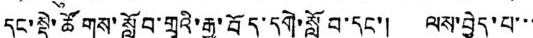དང་སྡེ་ཚོགས་སློབ་གྲྭའི་རྒྱ་བོད་དགེ་སློབ་དང་། ལས་བྱེད་པ་་་
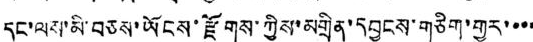དང་ལས་མི་བཅས་ཡོངས་རྫོགས་ཀྱིས་མགྲིན་དབྱངས་གཅིག་གྱུར་་་་
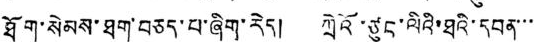ཐོག་སེམས་ཐག་བཅད་པ་ཞིག་རེད། ཀྲེའོ་ཙུང་ལིའི་ཐའི་དབན་་་
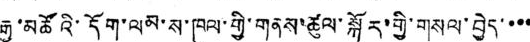རྒྱ་མཚོའི་དོག་ལམ་ས་ཁུལ་གྱི་གནས་ཚུལ་སྐོར་གྱི་གསལ་བྱེད་་་་
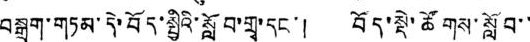བསྒྲག་གཏམ་དེ་བོད་སྤྱིའི་སློབ་གྲྭ་དང་། བོད་སྡེ་ཚོགས་སློབ་་
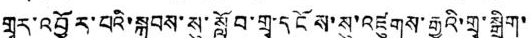གྲྭར་འབྱོར་བའི་སྐབས་སུ་སློབ་གྲྭ་དངོས་སུ་འདུགས་རྒྱའི་གྲྭ་སྒྲིག་་
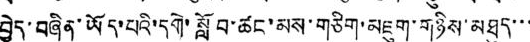བྱེད་བཞིན་ཡོད་པའི་དགེ་སློབ་ཚང་མས་གཅིག་མཇུག་གཉིས་མཐུད་་་
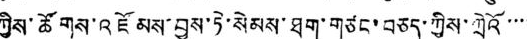ཀྱིས་ཚགོས་འཛོམས་བྱས་ཏེ་སེམས་ཐག་གཙང་བཅད་ཀྱིས་ཀྲེའོ་་་་
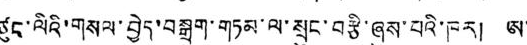ཙུང་ལིའི་གསལ་བྱེད་བསྒྲག་གཏམ་ལ་སྲུང་བརྩི་ཞུས་པའི་ཁར། ཨ་
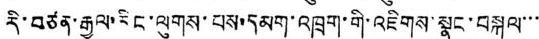རི་བཙན་རྒྱལ་རིང་ལུགས་པས་དམག་འཁྲུག་གི་འཇིགས་སྣང་བསྐུལ་་་
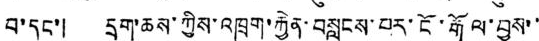བ་དང་། དྲག་ཆས་ཀྱིས་འཁྲུག་རྐྱེན་བསླངས་པར་ངོ་རྒོལ་བྱས་་
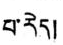པ་རེད།
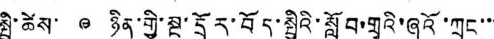སྤྱི་ཚེས་ ༩ ཉིན་གྱི་སྔ་དྲོར་བོད་སྤྱིའི་སློབ་གྲྭའི་ཞའོ་ཀྲང་་་
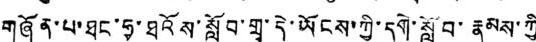གཞོན་པ་ཐང་ཧྭ་ཐའོས་སློབ་གྲྭ་དེ་ཡོངས་ཀྱི་དགེ་སློབ་རྣམས་ཀྱི
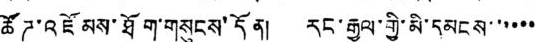ཚོཌ་འཛོམས་ཐོག་གསུངས་དོན། རང་རྒྱལ་གྱི་མི་དམངས་་་་་་
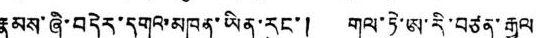རྣམས་ཞི་བདེར་དགའ་མཁན་ཡིན་རུང་། གལ་ཏེ་ཨ་རི་བཙན་རྒྱལ
